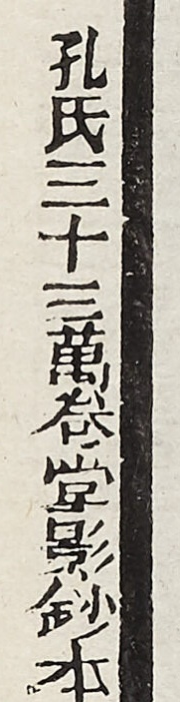孔氏三十三萬卷堂影鈔本
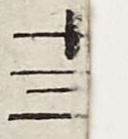十三
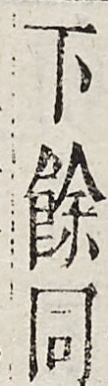下餘同
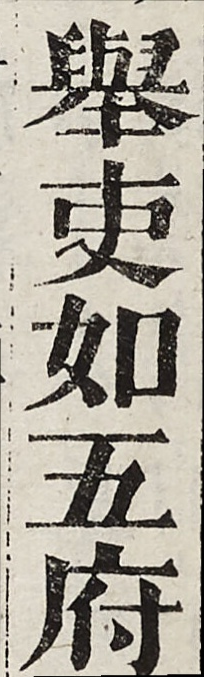舉吏如五府
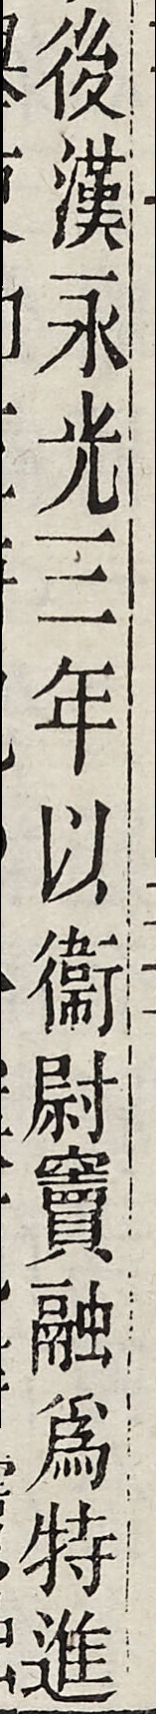後漢永光三年以衛尉竇融為特進
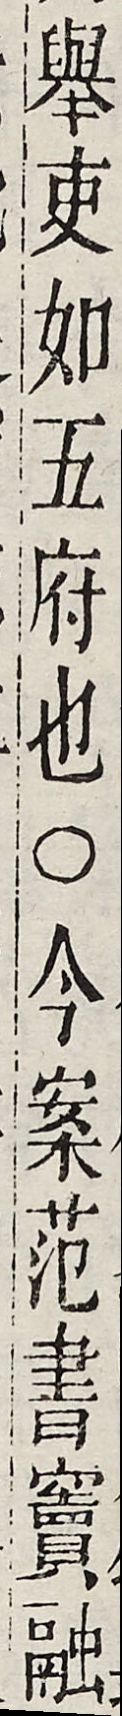舉吏如五府也○今案範書竇融
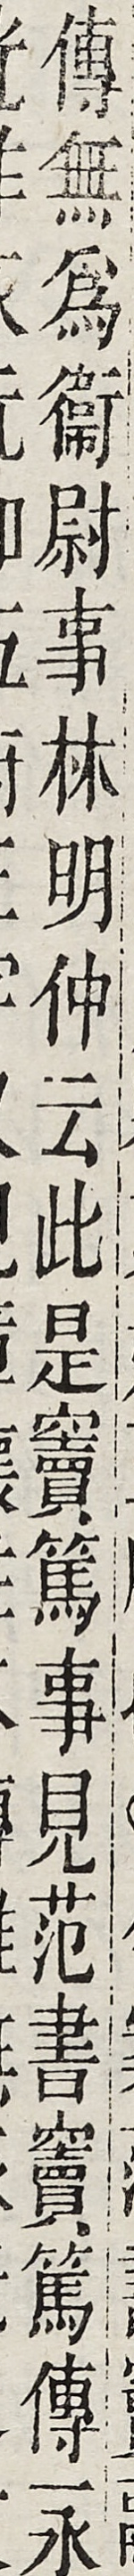傳無為衛尉事林明仲云此是竇篤事見範書竇篤傳永
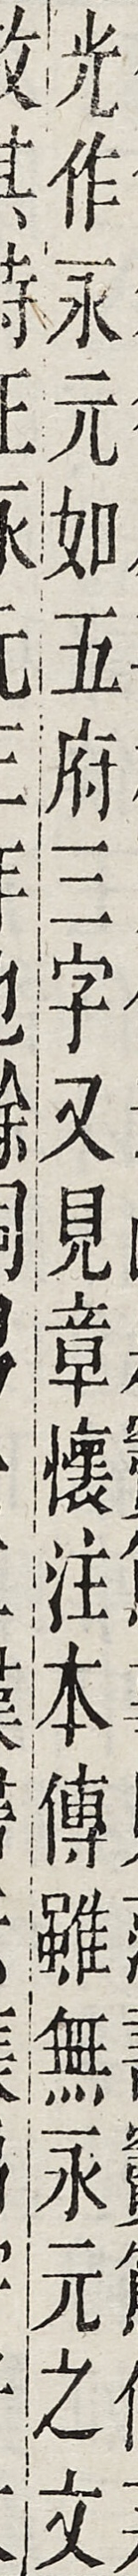光作永元如五府三字又見章懷注本傳雖無永元之文
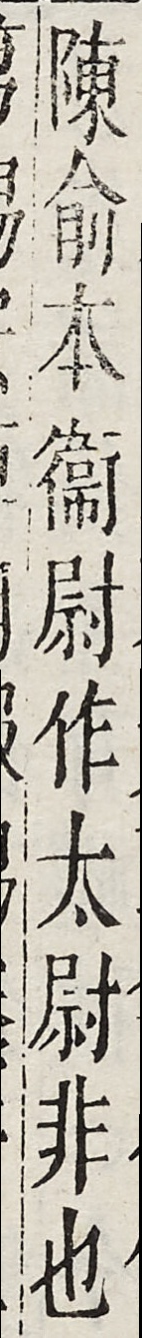陳俞本衛尉作太尉非也
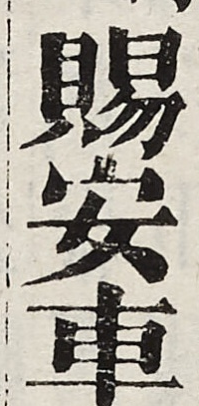賜安車
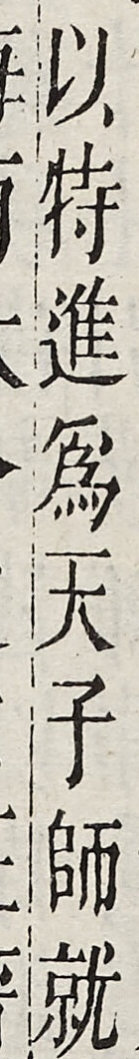以特進為天子師就
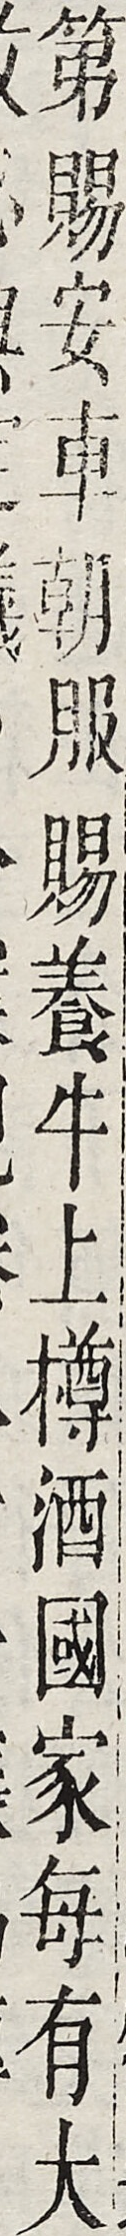第賜安車朝服賜養牛上樽酒國家每有大
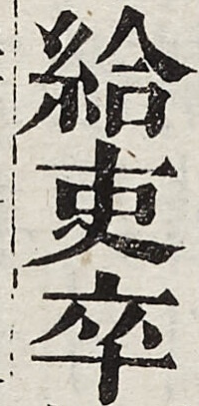給吏卒
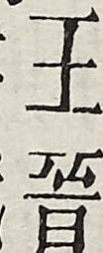王晉
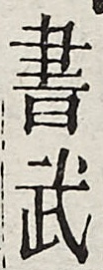書武
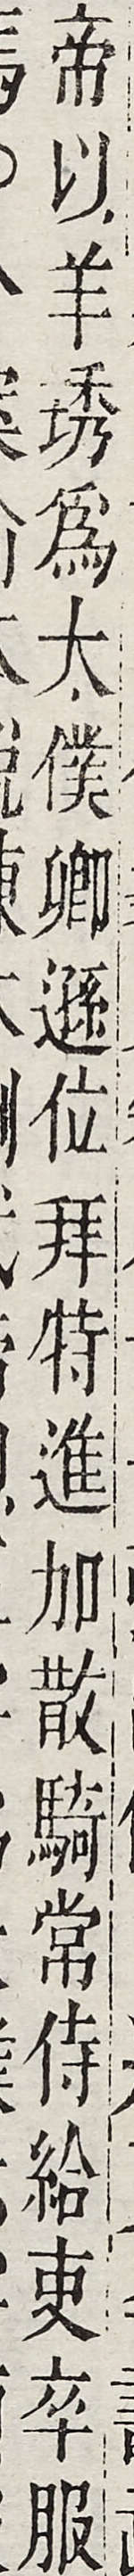帝以羊琇為太僕卿遜位拜特進加散騎常侍給吏卒服
